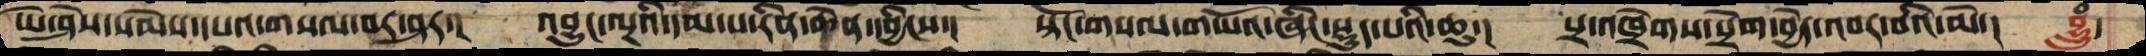ཡེ་ཤེས་སེམས་དཔའ་གསལ་བར་ཤར་།  འབྱུང་ལྔའི་དམ་པ་རིན་ཆེན་དབྱིངས་།  སྟོང་གསལ་གཡོའ་ཞིང་སྡུད་པའི་ཆུ་།  སྲ་འཁྲེགས་སྲེག་བྱེད་འབར་བའི་མེ་།  བྷྲུཾ་
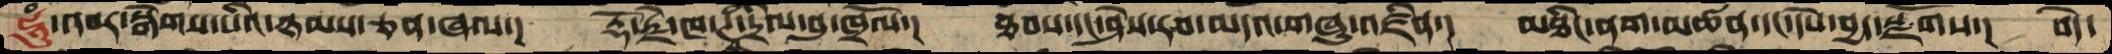ཧཱུཾ་འབར་སྒེགས་པའི་ཉམས་ཅན་ཞལ་།  རྡོ་རྗེ་ཁ་ཊཱཾ་དྲིལ་བུ་ཁྲོལ་།  ཐབས་དང་ཤེས་རབ་མདའ་གཞུ་འཛིན་།  མཐིང་ནག་མཚན་དང་དཔེ་བྱད་སྫོགས་།  བདེེ་
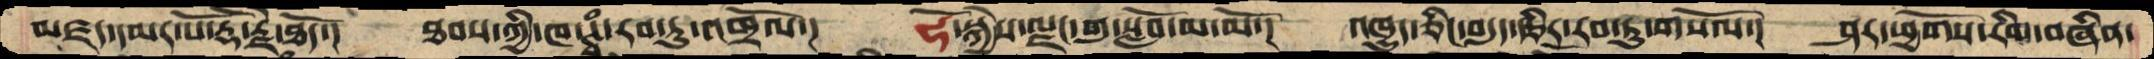མཛད་དམར་པོ་རྡོ་རྗེ་ཐོད་།  ཐབས་ཀྱི་ཁ་ཊཱཾ་རབ་ཏུ་འཁྲོལ་།  ཧོ་སྐྱེས་ལྗང་གུ་སློབ་མ་མོ་།  འཁྱུད་ཅིང་བདུད་རྩིར་རབ་ཏུ་གསོལ་།  ཤར་ཕྱོགས་རིག་བཞིན་
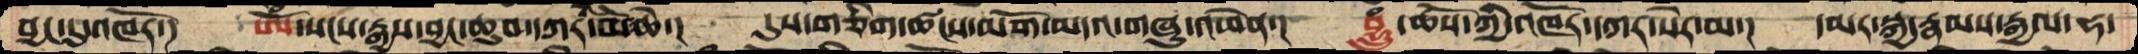བྱང་དུ་འཁོར་།  ཨོཾ་སངས་རྒྱས་བྱང་ཆུབ་དཀར་མོ་ཆེ་།  དུས་གཅིག་ཚངས་མགོ་མདའ་གཞུ་འཕེན་།  བྷྲུཾ་ཆོས་ཀྱི་འཁོར་དཀར་སེར་མ་།  དམར་སྐྱ་རྣམས་རྒྱལ་ཧ་
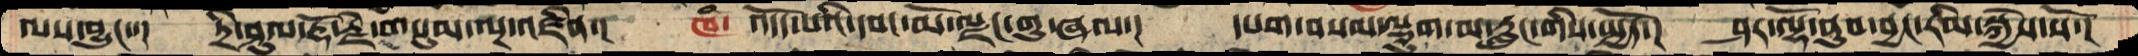ལས་བྱུང་་།  ཏྲི་ཤུལ་རྡོ་རྗེ་གསུམ་་ལྔ་འཛིན་།  ཁཾ༴ འདོད་པའི་དབང་མོ་ལྗང་གུ་ཞལ་།  དཔག་བསམ་ལྕུག་མ་རླུང་གིས་སྤྱོད་།  ཤར་ལྷོ་ནུབ་བྱང་རིམ་སྐྱེས་སོ་།
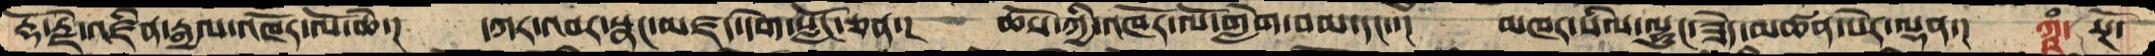རྡོ་རྗེེ་འཛིན་རྒྱལ་འཁོར་ལོ་ཆེ་།  དཀར་འབར་སྣང་མཛད་དགེ་སློང་ཅན་།  ཆོས་ཀྱི་འཁོར་ལོ་གླེག་བམ་དང་་།  མཁར་སིལ་ལྷུང་ཟེད་མཚན་པེར་ལྡན་།  ཀྵཾ་ སྔོ་
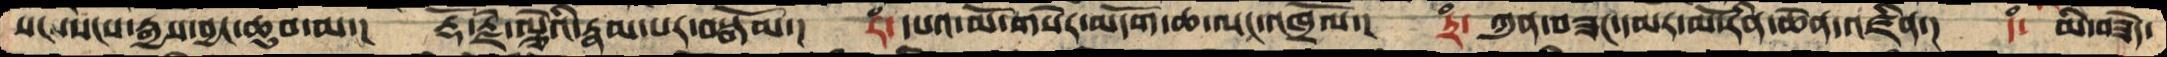སང་སངས་རྒྱས་བྱང་ཆུབ་མ་།  རྡོ་རྗེ་ལྕེའི་རྣམ་པར་བསྒོམ་།  རཾ་དཔའ་མོ་གསེར་མདོག་ཆ་ལང་འཁྲོལ་།  ཏྲཾ་ ཀུན་བཟང་དམར་མོ་རིན་ཆེན་འཛིན་།  དཾ་ མི་བཟེད་
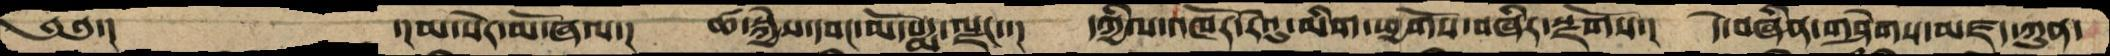༄༅་།         ་།མ་སེར་མོ་ཞལ་།  ཚ་སྐྱེས་དབང་མོ་པདྨ་ལྗང་་།  དཀྱིལ་འཁོོར་རེའུ་མིག་ཕྱོགས་བཞིར་སྫོགས་།  དེ་བཞིན་གཤེགས་མཛད་ཀུན་
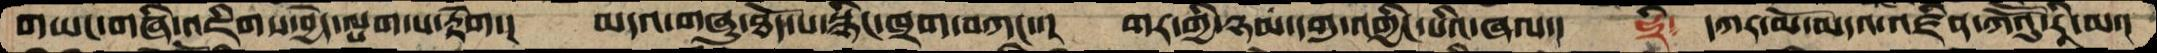གཡང་གཞི་འཇིགས་བྱེད་ལྤག་པ་རྟེག་།  མདའ་གཞུ་ཐོད་པ་སྙིང་ཁྲག་བཀང་་།  གར་གྱི་ཉམ་དགུ་འགྱིང་པའི་ཞལ་།  ཧྲི༴  དཀར་མོ་མདའ་འཛིན་ཀཽའུ་རཱི་མ་།
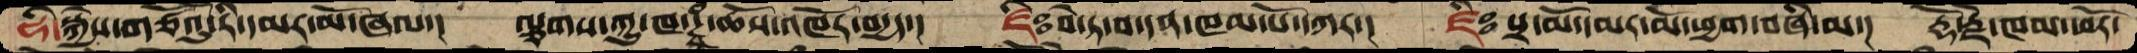ཧི་སྐྱེས་གཙོའུ་རི་དམར་མོ་ཞལ་།  ལྕགས་ཀྱུ་ཁ་ཊྭཱཾ་ཆོས་འཁོར་བདྱད་།  ཛིཿབེ་ཏ་བ་དན་ཁམ་པོ་དཀར་།  ཛིཿ་པྲ་མོ་དམར་མོ་ཕྱག་བཞི་མ་།  རྡོ་རྗེ་ཁམ་ཕོར་
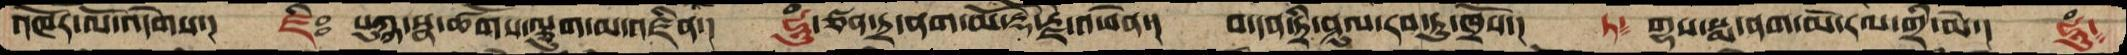འཁོར་ལོ་འདེགས་།  ཛིཿ  པུཀྐ་སྣ་ཚོགས་ལྕུག་མ་འཛིན་།  ཧཱུཾ་ཙན་ཏྲ་ནག་མོ་རྡོ་རྗེ་འཕེན་།  བ་དན་ཏྲི་ཤུལ་རབ་ཏུ་ཁྲོས་།   ཏ༴  གྷས་སྨ་ནག་མེ་རལ་གྲི་མེ་།  ཧཱུཾ༴
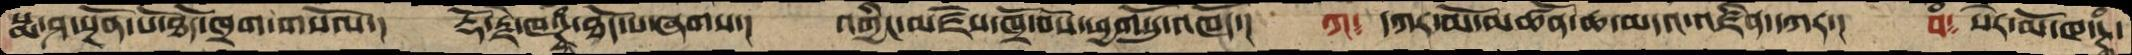སྨ་ཤ་སྔོན་པོ་ཐོད་ཁྲག་གསོལ་།  རྡོ་རྗེ་ཁ་ཊྭཱཾ་ཐོད་པ་ཞགས་།  འགྱིང་མཛེས་ཁྲོ་བོས་ཕྱོགསུ་འཁོར་།   ཀ༴  དཀར་མོ་མཚོན་ཆ་མདའ་འཛིན་དཀར་།  བཾ༴  སེར་མོ་ཁ་ཊྭཱཾ་
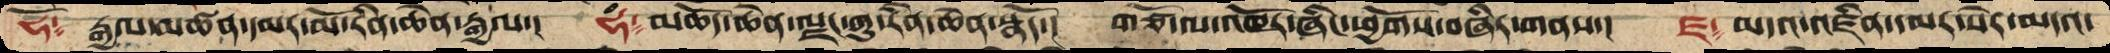ཧོ༴  རྒྱལ་མཚན་དམར་མོ་རིན་ཆེན་རྒྱལ་།  ཧཾ༴མཆོད་ཆེན་ལྗང་གུ་རིན་ཆེན་སྣོད་།  གཙོ་ལ་འཁོར་ཞིང་ཕྱོགས་བཞིར་གནས་།   ཛ༴མདའ་འཛིན་དམར་སེར་མདའ་
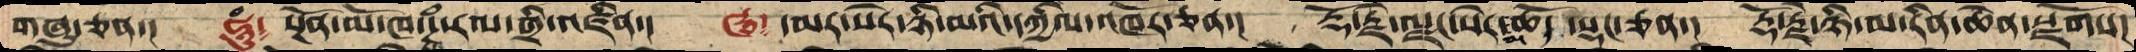གཞུ་ཅན་།  ཧཱུཾ༴ སྔོན་མོ་ཁ་ཌྭཾ་རལ་གྲི་འཛིན་།  ཝ༴ དམར་སེར་ཉི་མའི་དཀྱིལ་འཁོར་ཅན་།  རྡོ་རྗེ་ལྗང་སེར་མཆོད་སྡང་ཅན་།  རྡོ་རྗེ་ཉི་མ་རིན་ཆེན་སྫོགས།
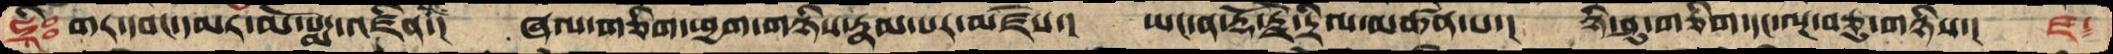ཧྲཱིཿ གར་དབང་དམར་མོ་པདྨ་འཛིན་།  ཞལ་གཅིག་ཕྱག་གཉིས་རྣམ་པར་མཛེས་།  ཡང་ན་རྡོ་རྗེ་དྲིལ་མཚན་པ་།  ཉི་ཤུ་གཅིག་དང་ལྔ་བཅུ་གཉིས་།  ཛ་
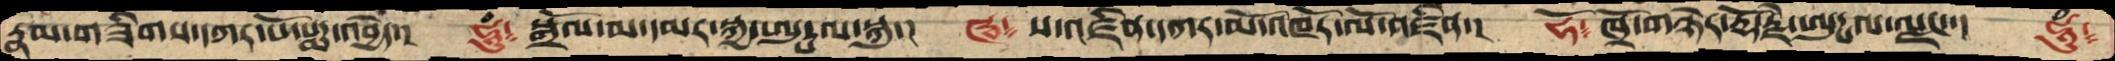རྣམ་གཟིགས་དཀར་པོ་པདྨ་འབྱེད་།  ཧཱུཾ༴སྒྲོལ་མ་དམར་སྐྱ་ཨུཏྤལ་སྐུ་།   ཝ༴ ས་འཛིན་དཀར་མོ་འཁོར་ལོ་འཛིན་།  ཧོ༴ཁྲོ་གཉེར་རྡོ་རྗེ་ཨུཏྤལ་ལྗང་་།།  ཧཱུཾ༴
